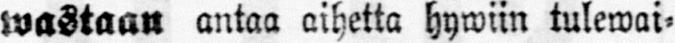wastaan antaa aihetta hywiin tulewai-
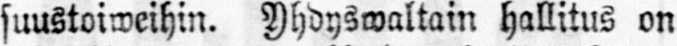suustoiweihin. Yhdyswaltain hallitus on
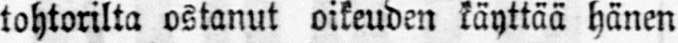tohtorilta ostanut oikeuden käyttää hänen
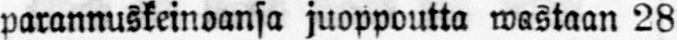parannuskeinoansa juoppoutta wastaan 28
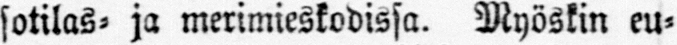sotilas- ja merimieskodissa. Myöskin eu-
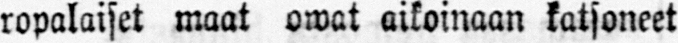ropalaiset maat owat aikoinaan katsoneet
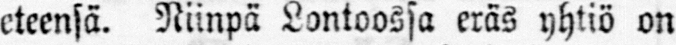eteensä. Niinpä Lontoossa eräs yhtiö on
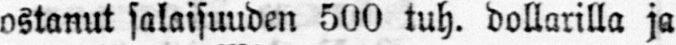ostanut salaisuuden 500 tuh. dollarilla ja
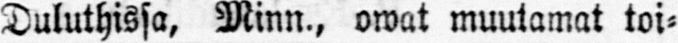Duluthissa, Minn., owat muutamat toi-
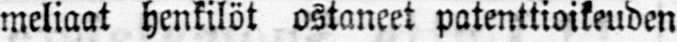meliaat henkilöt ostaneet patenttioikeuden
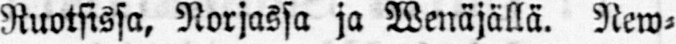Ruotsissa. Norjassa ja Wenäjällä. New-
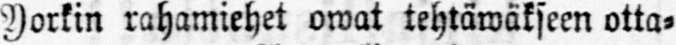Yorkin rahamiehet owat tehtäwäkseen otta-
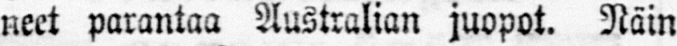neet parantaa Australian juopot. Näin
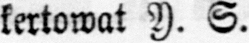kertowat Y. S.
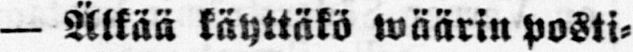— Älkää käyttäkö wäärin posti-
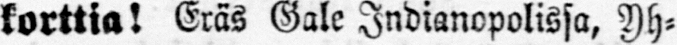korttia! Eräs Gale Indianopolissa, Yh-
